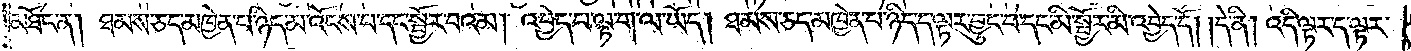མཐོང་ན། ཐམས་ཅད་མཁྱེན་པ་ཉིད་མ་འོངས་པ་དང་སྦྱོར་བའམ། འབྱེད་པ་ལྟ་ག་ལ་ཡོད། ཐམས་ཅད་མཁྱེན་པ་ཉིད་ད་ལྟར་བྱུང་བ་དང་མི་སྦྱོར་མི་འབྱེད་དོ། །དེ་ནི། འདི་ལྟར་ད་ལྟར་
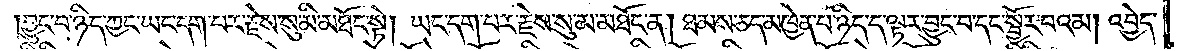བྱུང་བ་ཉིད་ཀྱང་ཡང་དག་པར་རྗེས་སུ་མི་མཐོང་སྟེ། ཡང་དག་པར་རྗེས་སུ་མ་མཐོང་ན། ཐམས་ཅད་མཁྱེན་པ་ཉིད་ད་ལྟར་བྱུང་བ་དང་སྦྱོར་བའམ། འབྱེད་
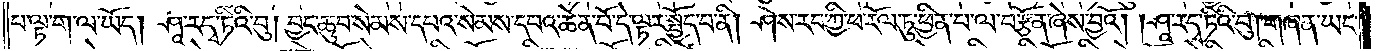པ་ལྟ་ག་ལ་ཡོད། ཤཱ་རདྭ་ཏའི་བུ། བྱང་ཆུབ་སེམས་དཔའ་སེམས་དཔའ་ཆེན་པོ་དེ་ལྟར་སྤྱོད་པ་ནི། ཤེས་རབ་ཀྱི་ཕ་རོལ་ཏུ་ཕྱིན་པ་ལ་བརྩོན་ཞེས་བྱའོ། །ཤཱ་ར་དྭ་ཏིའི་བུ། གཞན་ཡང་
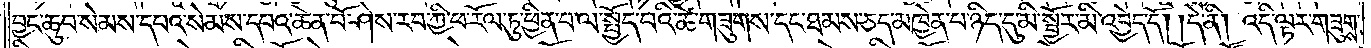བྱང་ཆུབ་སེམས་དཔའ་སེམས་དཔའ་ཆེན་པོ་ཤེས་རབ་ཀྱི་ཕ་རོལ་ཏུ་ཕྱིན་པ་ལ་སྤྱོད་པའི་ཚེ་གཟུགས་དང་ཐམས་ཅད་མཁྱེན་པ་ཉིད་དུ་མི་སྦྱོར་མི་འབྱེད་དོ། །དེ་ནི། འདི་ལྟར་གཟུགས་
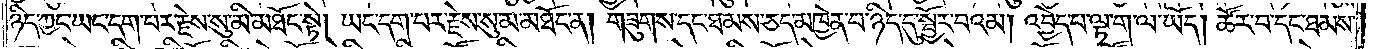ཉིད་ཀྱང་ཡང་དག་པར་རྗེས་སུ་མི་མཐོང་སྟེ། ཡང་དག་པར་རྗེས་སུ་མ་མཐོང་ན། གཟུགས་དང་ཐམས་ཅད་མཁྱེན་པ་ཉིད་དུ་སྦྱོར་བའམ། འབྱེད་པ་ལྟ་ག་ལ་ཡོད། ཚོར་བ་དང་ཐམས་
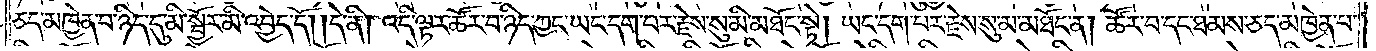ཅད་མཁྱེན་པ་ཉིད་དུ་མི་སྦྱོར་མི་འབྱེད་དོ། །དེ་ནི། འདི་ལྟར་ཚོར་བ་ཉིད་ཀྱང་ཡང་དག་པར་རྗེས་སུ་མི་མཐོང་སྟེ། ཡང་དག་པར་རྗེས་སུ་མ་མཐོང་ན། ཚོར་བ་དང་ཐམས་ཅད་མཁྱེན་པ་
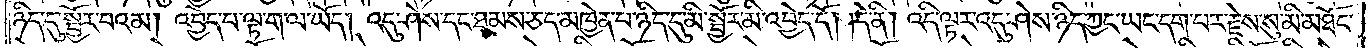ཉིད་དུ་སྦྱོར་བའམ། འབྱེད་པ་ལྟ་ག་ལ་ཡོད། འདུ་ཤེས་དང་ཐམས་ཅད་མཁྱེན་པ་ཉིད་དུ་མི་སྦྱོར་མི་འབྱེད་དོ། །དེ་ནི། འདི་ལྟར་འདུ་ཤེས་ཉིད་ཀྱང་ཡང་དག་པར་རྗེས་སུ་མི་མཐོང་
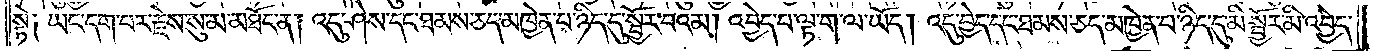སྟེ༑ ཡང་དག་པར་རྗེས་སུམ་མཐོང་ན། འདུ་ཤེས་དང་ཐམས་ཅད་མཁྱེན་པ་ཉིད་དུ་སྦྱོར་བའམ། འབྱེད་པ་ལྟ་ག་ལ་ཡོད། འདུ་བྱེད་དང་ཐམས་ཅད་མཁྱེན་པ་ཉིད་དུ་མི་སྦྱོར་མི་འབྱེད་
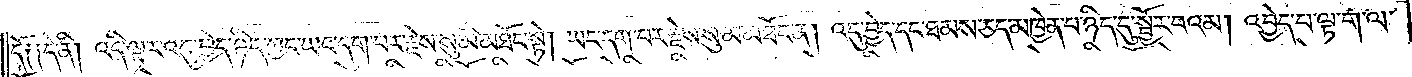དོ༑ ༑དེ་ནི། འདི་ལྟར་འདུ་བྱེད་ཉིད་ཀྱང་ཡང་དག་པར་རྗེས་སུ་མི་མཐོང་སྟེ། ཡང་དག་པར་རྗེས་སུ་མ་མཐོང་ན། འདུ་བྱེད་དང་ཐམས་ཅད་མཁྱེན་པ་ཉིད་དུ་སྦྱོར་བའམ། འབྱེད་པ་ལྟ་ག་ལ་
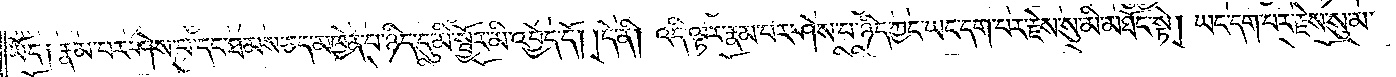ཡོང་༑ རྣམ་པར་ཤེས་པ་དང་ཐམས་ཅད་མཁྱེན་པ་ཉིད་དུ་མི་སྦྱོར་མི་འབྱེད་དོ། །དེ་ནི། འདི་ལྟར་རྣམ་པར་ཤེས་པ་ཉིད་ཀྱང་ཡང་དག་པར་རྗེས་སུ་མི་མཐོང་སྟེ། ཡང་དག་པར་རྗེས་སུ་མ་
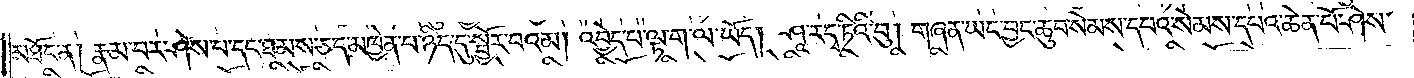མཐོང་ན། རྣམ་པར་ཤེས་པ་དང་ཐམས་ཅད་མཁྱེན་པ་ཉིད་དུ་སྦྱོར་བའམ། འབྱེད་པ་ལྟ་ག་ལ་ཡོད། ཤཱ་རདྭ་ཏིའི་བུ། གཞན་ཡང་བྱང་ཆུབ་སེམས་དཔའ་སེམས་དཔའ་ཆེན་པོ་ཤེས་
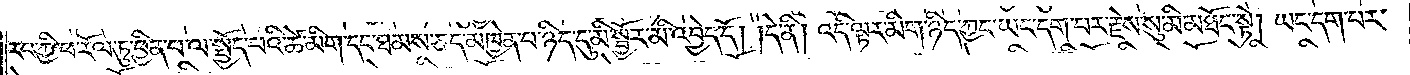རབ་ཀྱི་ཕ་རོལ་ཏུ་ཕྱིན་པ་ལ་སྤྱོད་པའི་ཚེ་མིག་དང་ཐམས་ཅད་མཁྱེན་པ་ཉིད་དུ་མི་སྦྱོར་མི་འབྱེད་དོ། །དེ་ནི། འདི་ལྟར་མིག་ཉིད་ཀྱང་ཡང་དག་པར་རྗེས་སུ་མི་མཐོང་སྟེ། ཡང་དག་པར་
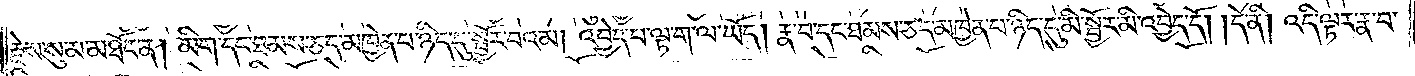རྗེས་སུ་མ་མཐོང་ན། མིག་དང་ཐམས་ཅད་མཁྱེན་པ་ཉིད་དུ་སྦྱོར་བའམ། འབྱེད་པ་ལྟ་ག་ལ་ཡོད། རྣ་བ་དང་ཐམས་ཅད་མཁྱེན་པ་ཉིད་དུ་མི་སྦྱོར་མི་འབྱེད་དོ། །དེ་ནི། འདི་ལྟར་རྣ་བ་
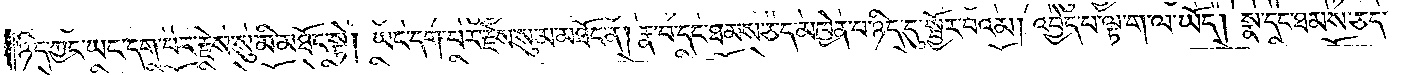ཉིད་ཀྱང་ཡང་དག་པར་རྗེས་སུ་མི་མཐོང་སྟེ། ཡང་དག་པར་རྗེས་སུ་མ་མཐོང་ན། རྣ་བ་དང་ཐམས་ཅད་མཁྱེན་པ་ཉིད་དུ་སྦྱོར་བའམ། འབྱེད་པ་ལྟ་ག་ལ་ཡོད། སྣ་དང་ཐམས་ཅད་
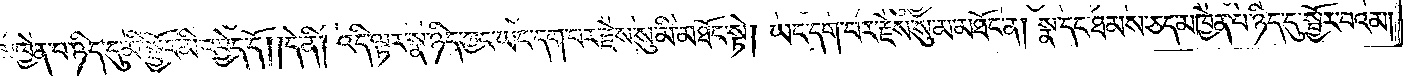མཁྱེན་པ་ཉིད་དུ་མི་སྦྱོར་མི་འབྱེད་དོ། །དེ་ནི། འདི་ལྟར་སྣ་ཉིད་ཀྱང་ཡང་དག་པར་རྗེས་སུ་མི་མཐོང་སྟེ། ཡང་དག་པར་རྗེས་སུ་མ་མཐོང་ན། སྣ་དང་ཐམས་ཅད་མཁྱེན་པ་ཉིད་དུ་སྦྱོར་བའམ།
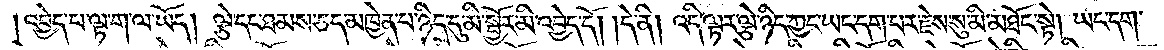འབྱེད་པ་ལྟ་ག་ལ་ཡོད། ལྕེ་དང་ཐམས་ཅད་མཁྱེན་པ་ཉིད་དུ་མི་སྦྱོར་མི་འབྱེད་དོ། །དེ་ནི། འདི་ལྟར་ལྕེ་ཉིད་ཀྱང་ཡང་དག་པར་རྗེས་སུ་མི་མཐོང་སྟེ། ཡང་དག་
